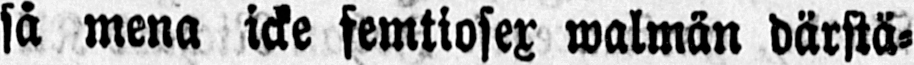så mena icke femtiosex walmän därstä-
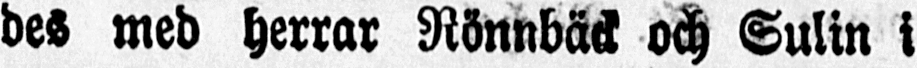des med herrar Rönnbäck och Sulin i
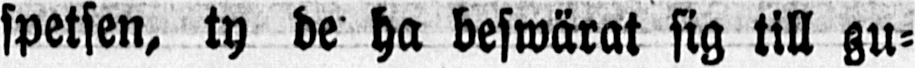spetsen, ty de ha beswärat sig till gu-
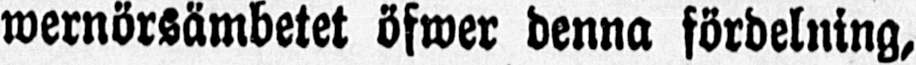wernörsämbetet öfwer denna fördelning,
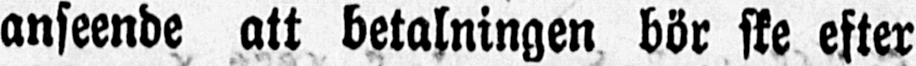anseende att betalningen bör ske efter
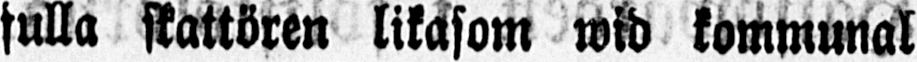fulla skattören likasom wid kommunal
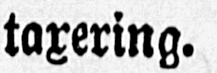taxering.
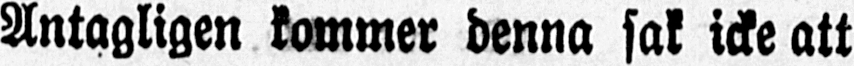Antagligen kommer denna sak icke att
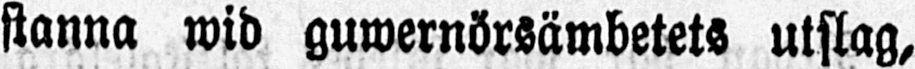stanna wid guwernörsämbetets utslag,
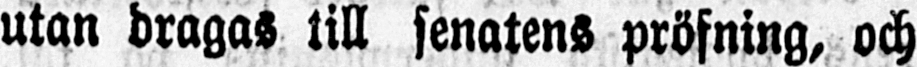utan dragas till senatens pröfning, och
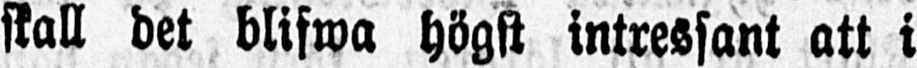skall det blifwa högst intressant att i
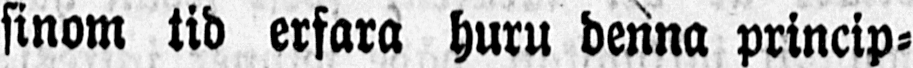sinom tid erfara huru denna princip-
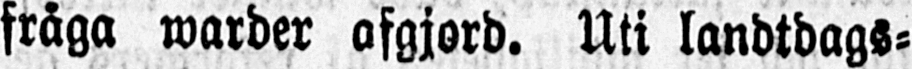fråga warder afgjord. Uti landtdags-
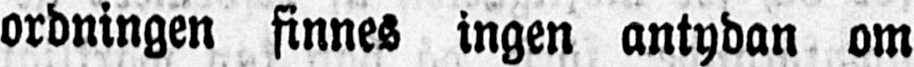ordningen finnes ingen antydan om
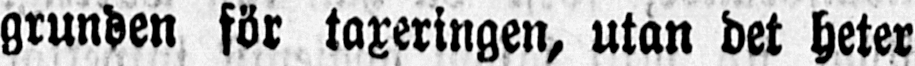grunden för taxeringen, utan det heter
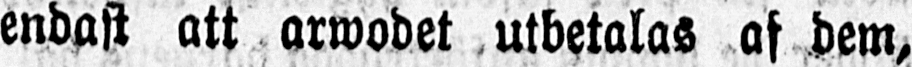endast att arwodet utbetalas af dem,
